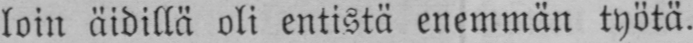loin äidillä oli entistä enemmän työtä,
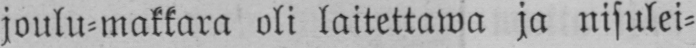joulu-makkara oli laitettawa ja nisulei-
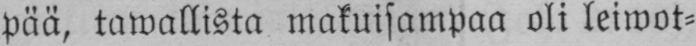pää, tawallista makuisampaa oli leiwot-
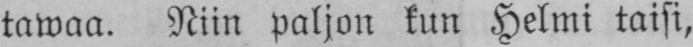tawaa. Niin paljon kun Helmi taisi,
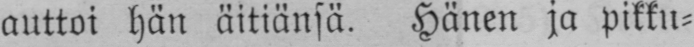auttoi hän äitiänsä. Hänen ja pikku-
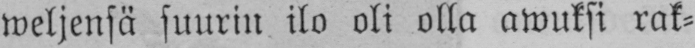weljensä suurin ilo oli olla awuksi rak-
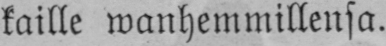kaille wanhemmillensa.
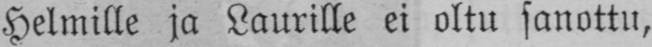Helmille ja Laurille ei oltu sanottu,
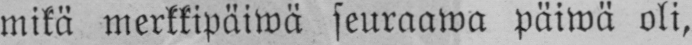mikä merkkipäiwä seuraawa päiwä oli,
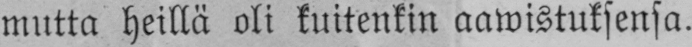mutta heillä oli kuitenkin aawistuksensa.
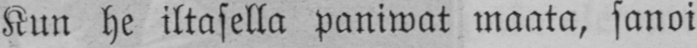Kun he iltasella paniwat maata, sanoi
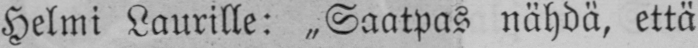Helmi Laurille: „Saatpas nähdä, että
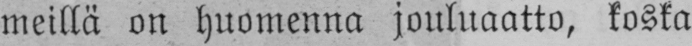meillä on huomenna jouluaatto, koska
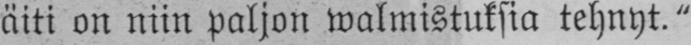äiti on niin paljon walmistuksia tehnyt."
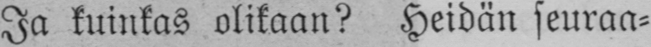Ja kuinkas olikaan? Heidän seuraa-
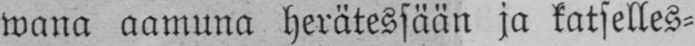wana aamuna herätessään ja katselles-
